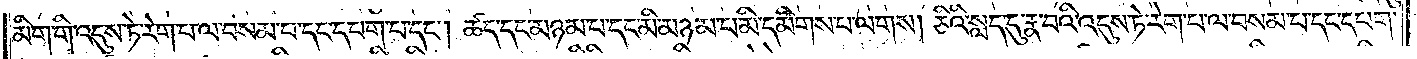མིག་གི་འདུས་ཏེ་རེག་པ་ལ་བསམ་པ་དང་དཔག་པ་དང༌། ཚད་དང་མཉམ་པ་དང་མི་མཉམ་པ་མི་དམིགས་པ་ལགས། ཅིའི་སླད་དུ་རྣ་བའི་འདུས་ཏེ་རེག་པ་ལ་བསམ་པ་དང་དཔག་
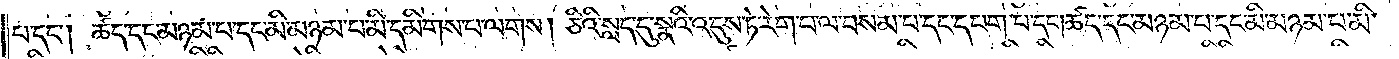པ་དང༌། ཚད་དང་མཉམ་པ་དང་མི་མཉམ་པ་མི་དམིགས་པ་ལགས། ཅིའི་སླད་དུ་སྣའི་འདུས་ཏེ་རེག་པ་ལ་བསམ་པ་དང་དཔག་པ་དང༌། ཚད་དང་མཉམ་པ་དང་མི་མཉམ་པ་མི་
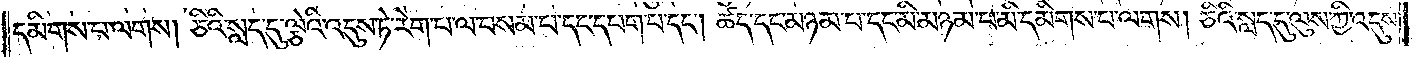དམིགས་པ་ལགས། ཅིའི་སླད་དུ་ལྕེའི་འདུས་ཏེ་རེག་པ་ལ་བསམ་པ་དང་དཔག་པ་དང༌། ཚད་དང་མཉམ་པ་དང་མི་མཉམ་པ་མི་དམིགས་པ་ལགས། ཅིའི་སླད་དུ་ལུས་ཀྱི་འདུས་
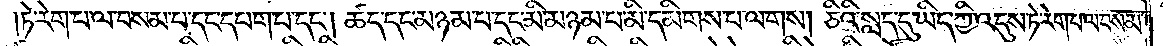ཏེ་རེག་པ་ལ་བསམ་པ་དང་དཔག་པ་དང༌། ཚད་དང་མཉམ་པ་དང་མི་མཉམ་པ་མི་དམིགས་པ་ལགས། ཅིའི་སླད་དུ་ཡིད་ཀྱི་འདུས་ཏེ་རེག་པ་ལ་བསམ་
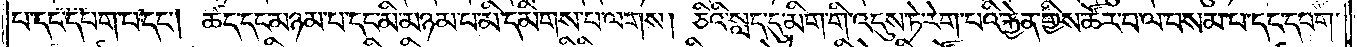པ་དང་དཔག་པ་དང༌། ཚད་དང་མཉམ་པ་དང་མི་མཉམ་པ་མི་དམིགས་པ་ལགས། ཅིའི་སླད་དུ་མིག་གི་འདུས་ཏེ་རེག་པའི་རྐྱེན་གྱིས་ཚོར་བ་ལ་བསམ་པ་དང་དཔག་
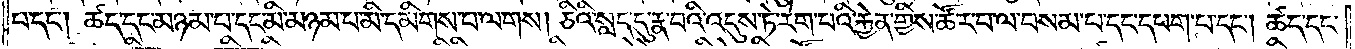པ་དང༌། ཚད་དང་མཉམ་པ་དང་མི་མཉམ་པ་མི་དམིགས་པ་ལགས། ཅིའི་སླད་དུ་རྣ་བའི་འདུས་ཏེ་རེག་པའི་རྐྱེན་གྱིས་ཚོར་བ་ལ་བསམ་པ་དང་དཔག་པ་དང༌། ཚད་དང་
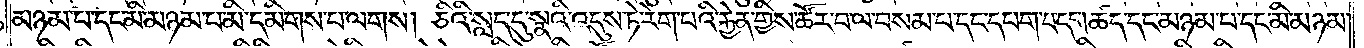མཉམ་པ་དང་མི་མཉམ་པ་མི་དམིགས་པ་ལགས། ཅིའི་སླད་དུ་སྣའི་འདུས་ཏེ་རེག་པའི་རྐྱེན་གྱིས་ཚོར་བ་ལ་བསམ་པ་དང་དཔག་པ་དང༌། ཚད་དང་མཉམ་པ་དང་མི་མཉམ་
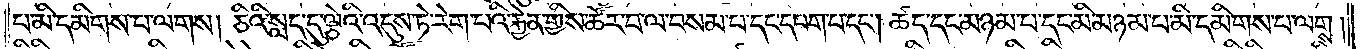པ་མི་དམིགས་པ་ལགས། ཅིའི་སླད་དུ་ལྕེའི་འདུས་ཏེ་རེག་པའི་རྐྱེན་གྱིས་ཚོར་བ་ལ་བསམ་པ་དང་དཔག་པ་དང༌། ཚད་དང་མཉམ་པ་དང་མི་མཉམ་པ་མི་དམིགས་པ་ལགས།
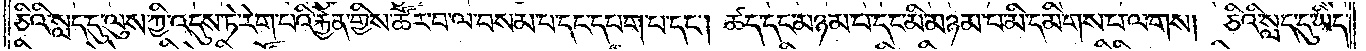ཅིའི་སླད་དུ་ལུས་ཀྱི་འདུས་ཏེ་རེག་པའི་རྐྱེན་གྱིས་ཚོར་བ་ལ་བསམ་པ་དང་དཔག་པ་དང༌། ཚད་དང་མཉམ་པ་དང་མི་མཉམ་པ་མི་དམིགས་པ་ལགས། ཅིའི་སླད་དུ་ཡིད་
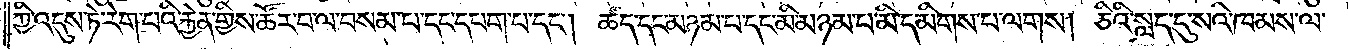ཀྱི་འདུས་ཏེ་རེག་པའི་རྐྱེན་གྱིས་ཚོར་བ་ལ་བསམ་པ་དང་དཔག་པ་དང༌། ཚད་དང་མཉམ་པ་དང་མི་མཉམ་པ་མི་དམིགས་པ་ལགས། ཅིའི་སླད་དུ་སའི་ཁམས་ལ་
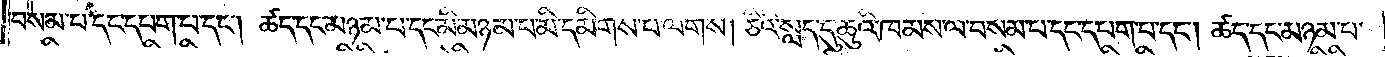བསམ་པ་དང་དཔག་པ་དང༌། ཚད་དང་མཉམ་པ་དང་མི་མཉམ་པ་མི་དམིགས་པ་ལགས། ཅིའི་སླད་དུ་ཆུའི་ཁམས་ལ་བསམ་པ་དང་དཔག་པ་དང༌། ཚད་དང་མཉམ་པ་
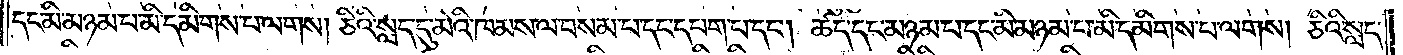དང་མི་མཉམ་པ་མི་དམིགས་པ་ལགས། ཅིའི་སླད་དུ་མེའི་ཁམས་ལ་བསམ་པ་དང་དཔག་པ་དང༌། ཚད་དང་མཉམ་པ་དང་མི་མཉམ་པ་མི་དམིགས་པ་ལགས། ཅིའི་སླད་
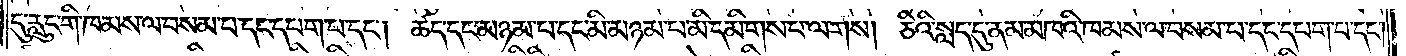དུ་རླུང་གི་ཁམས་ལ་བསམ་པ་དང་དཔག་པ་དང༌། ཚད་དང་མཉམ་པ་དང་མི་མཉམ་པ་མི་དམིགས་པ་ལགས། ཅིའི་སླད་དུ་ནམ་མཁའི་ཁམས་ལ་བསམ་པ་དང་དཔག་པ་དང༌།
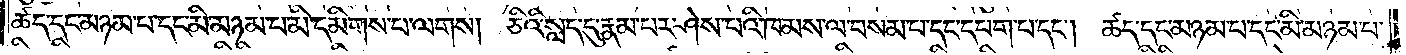ཚད་དང་མཉམ་པ་དང་མི་མཉམ་པ་མི་དམིགས་པ་ལགས། ཅིའི་སླད་དུ་རྣམ་པར་ཤེས་པའི་ཁམས་ལ་བསམ་པ་དང་དཔག་པ་དང༌། ཚད་དང་མཉམ་པ་དང་མི་མཉམ་པ་
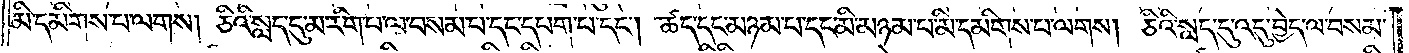མི་དམིགས་པ་ལགས། ཅིའི་སླད་དུ་མ་རིག་པ་ལ་བསམ་པ་དང་དཔག་པ་དང༌། ཚད་དང་མཉམ་པ་དང་མི་མཉམ་པ་མི་དམིགས་པ་ལགས། ཅིའི་སླད་དུ་འདུ་བྱེད་ལ་བསམ་
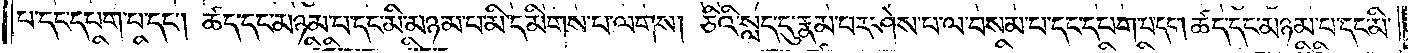པ་དང་དཔག་པ་དང༌། ཚད་དང་མཉམ་པ་དང་མི་མཉམ་པ་མི་དམིགས་པ་ལགས། ཅིའི་སླད་དུ་རྣམ་པར་ཤེས་པ་ལ་བསམ་པ་དང་དཔག་པ་དང༌། ཚད་དང་མཉམ་པ་དང་མི་
